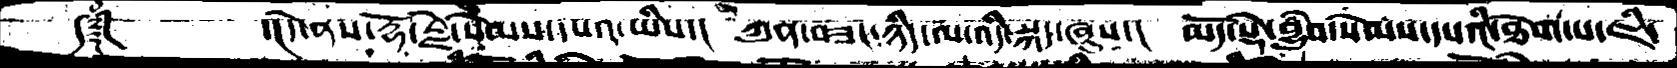༼༈ཾ༽    ་།དེ་ནས་རྡོ་རྗེ་སེམས་དཔའ་ཡིས་།  ཀུན་བཟང་ཉིད་ལ་འདི་སྐད་ཞུས་།  མདོ་སྡེ་བྱུཾབ་སེམས་དཔའི་ཐེག་པ་ཇི་
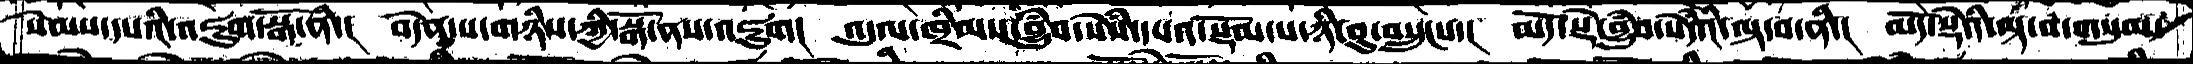སེམས་དཔའི་འཇུག་སྒོ་ནི་།  བདེན་པ་གཉིས་ཀྱི་སྒོ་ནས་འཇུག།  འདུལ་ཁྲིམས་བྱུཾབ་སེཾས་དཔའ་སྡོམ་པ་ཉི་ཤུ་བསྲུངས་།  མདོ་སྡེ་བྱུཾབ་སེདཾའི་ལྟ་བ་ནི་།  མདོ་སྡེའི་ལྟ་བ་གསུམ་
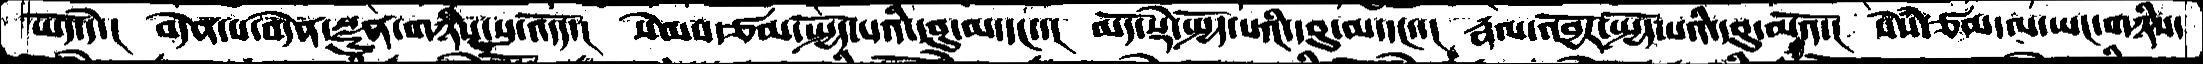ཡོད་དེ་།  བདེན་པ་བདེན་སྫུན་གཉིས་སུ་འདོད་།  སེམས་ཙམ་སྤྱོད་པའི་དབུ་མ་དང་་།  མདོ་སྡེ་སྤྱོད་པའི་དབུ་མ་དང་་།  རྣལ་འབྱོར་སྤྱོད་པའི་དབུ་མའོ་།  སེཾས་ཙམ་ལ་ཡང་གཉིས་
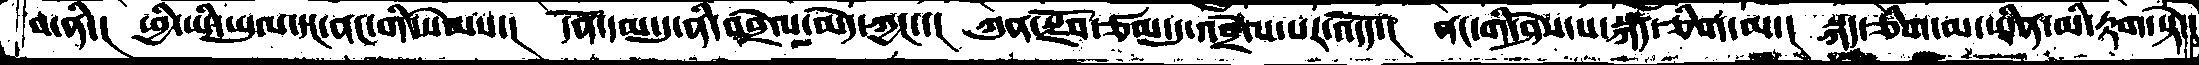བ་ནི་།  ཕྱི་ཡི་ཡུལ་དང་ནང་གི་སེམས་།  དོན་དམ་དུ་ནི་འབྲེལ་མེད་ཀྱང་་།  ཀུན་སྫོབ་ཙམ་དུ་འབྲེལ་པར་འདོད་།  ནང་གི་ཤེས་པ་སྐད་ཅིག་ལ་།  སྐད་ཅིག་མ་ཡིན་མི་རྟག་སྟེ་།
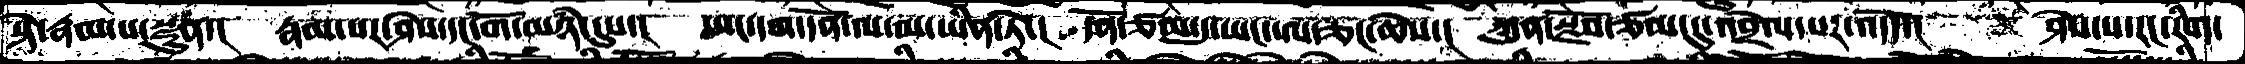སྟེ་རྣམ་པ་སྫུན་།  རྣམ་པར་ཤེས་དང་གོ་མཉཾ་དུས་།  ཡང་དག་དོན་ལ་མ་ཡིན་ཏེ་།  དོན་ཙམ་དུ་ཡང་ཨ་ཅང་ཆེས་།  ཀུན་སྫོབ་ཙམ་དུ་འབྲེལ་པར་འདོད་།  ཤེས་པ་རང་རིག་
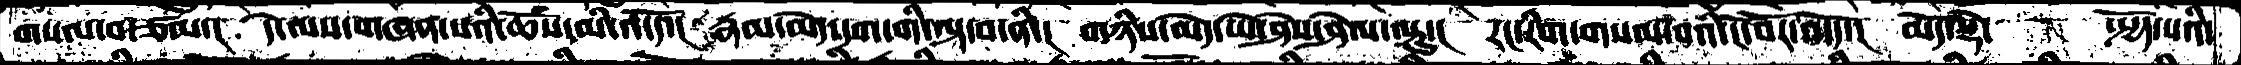གསལ་བ་ཙམ་།  དེ་ལས་གཞན་པའི་ཆོས་མི་འདོད་།  རྣམ་མེད་དག་གི་ལྟ་བ་ནི་།  གཉིས་མེད་ཡེ་ཤེས་ཤེལ་ལྟུ་།  རང་རིག་གསལ་བའི་ངོ་བོ་འདོད་།  མདོ་སྡེ་    སྤྱོད་པའི་
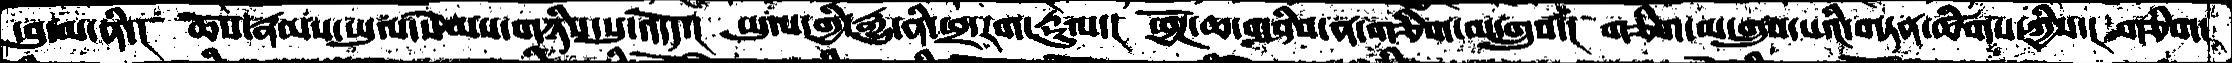དབུ་མ་ནི་།  ཆོས་རྣམས་ཡུལ་སེམས་གཉིས་སུ་འོདད་།  ཡུལ་གྱི་རྒྱུ་ནི་ཕྲ་རག་རྡུལ་།  ཕྱོཌ་ཆ་གཤིས་ན་གཅིག་མ་གྲུབ་།  གཅིག་མ་གྲུབ་པའི་གཏན་ཚིགས་ཀྱིས་།  གཅིག་
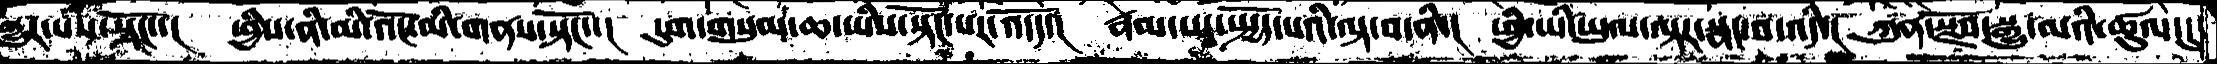གྱུར་པས་སྟོང་་།  ཕྱིས་ནི་མི་འོང་མི་གནས་སྟོང་་།  དུག་གསུམ་ཆ་ཡིས་སྟོང་པར་འདོད་།  རྣམ་པ་སྤྱོད་པའི་ལྟ་བ་ནི་།  ཕྱི་ཡི་ཡུལ་་ལྟར་སྣང་བ་འདི་།  ཀུན་སྫོབ་སྒྱུ་མའི་ཚུལ་དུ་
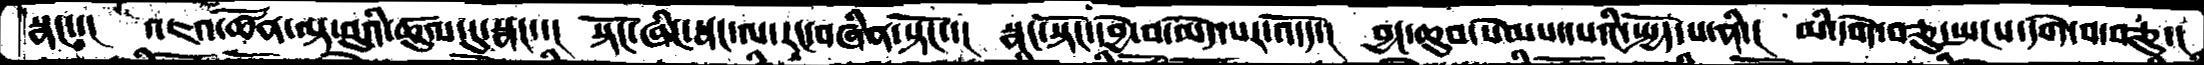སྣང་།  འཇའ་ཚོན་ལྟ་བུའི་ཚུལ་དུ་སྣང་་།  སྟོང་ཞིང་སྣང་ལ་རང་བཞིན་སྟོང་་།  སྣང་སྟོང་དབྱེ་བ་མེད་པར་འདོད་།  བྱང་ཆུབ་སེམས་དཔའི་སྤྱོད་པ་ནི་།  མི་དགེ་བཅུ་སྤངས་དགེ་བ་བཅུ་།
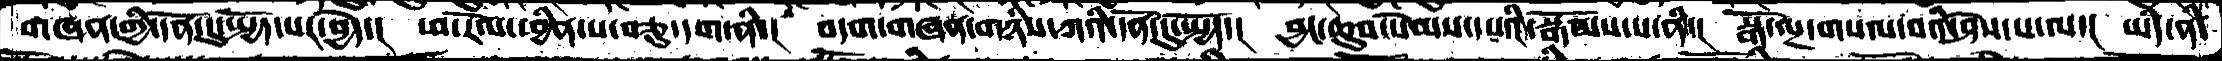གཞན་གྱི་དོན་དུ་སྤྱོད་པར་བྱེད་།  ཕ་རོལ་ཕྱིན་པ་བཅུ་དག་ནི་།  བདག་གཞན་གཉིས་ཀའི་དོན་དུ་སྤྱོད་།  བྱང་ཆུབ་སེམས་དཔའི་སྒོམས་པ་ནི་།  སྒོ་ལྔ་་གསལ་བའི་ཤེས་པ་ལ་།  ཡིད་ནི་
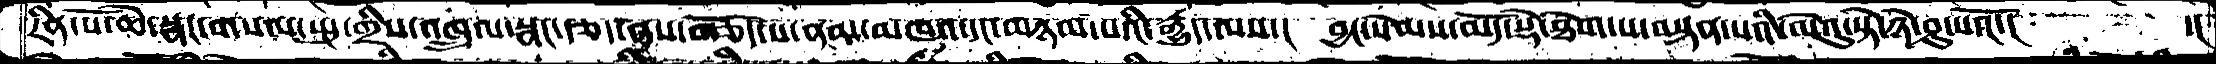རིན་པོ་ཆེ་སྣང་གསལ་སྤུ་གྲིས་འཁྲུལ་སྣང་རྩད་ནས་གཅོད་པ་ནམ་མཁའ་དང་མཉམ་པའི་རྒྱུད་ལས་།  བྱང་སེམས་མདོ་སྡེ་ཐེག་པ་བསྟན་པའི་ལེའུ་སྟེ་ཉེ་ཤུ་པའོ་།     ་།
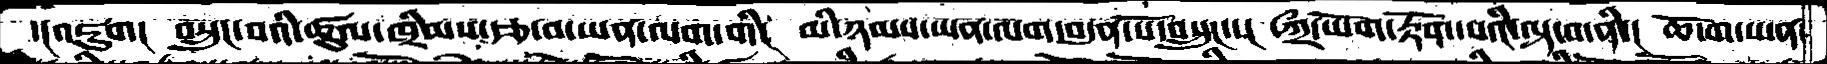དངའཇུག།  བསྲུང་བའི་ཚུལ་ཁྲིམས་རྩ་བ་ཡན་ལག་གི།   མི་ཉམས་ཡན་ལག་བདུན་པོ་བསྲུངས་།  ཀྲྀ་ཡོག་རྟོག་པའི་ལྟ་བ་ནི་།  ཆོ་ག་ཡན་
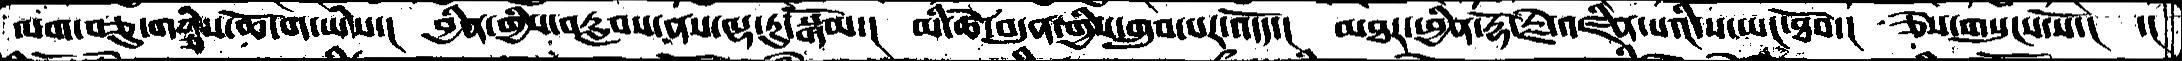ལག་བཅུ་གཉིས་ཆོ་ག་ཡིས་།  བྱིན་གྱིས་བརླབས་ནས་ལྷ་རུ་སྒོམ་།  མི་ཚེ་བདུན་གྱིས་གྲུབ་པར་འདོད་།  མཐར་ཕྱིན་རྡོ་རྗེ་འཛིན་པའི་ས་ཡང་ཐོབ་། ཅེས་གསུངས་སོ་། ་།
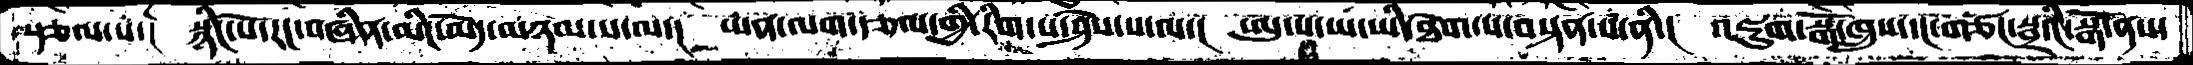སྩལ་པ་།  སྙིང་པོ་རང་བཞིན་མིང་མེད་མཉམ་པ་ལ་།  ཡན་ལག་རྩལ་གྱི་རིག་པ་ཤེས་པ་ལ་།  ཨུ་པ་ཡ་ཡི་ཐེག་པ་བསྟན་པ་ནི་།  འཇུག་སྒོ་ཁྲུས་དང་གཙང་སྦྲའི་སྒོ་ནས་
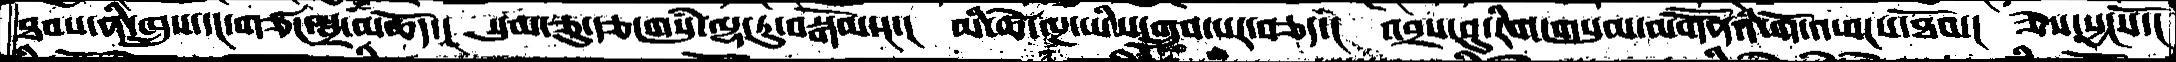ཐབས་ནི་ཁྲུས་དང་གཙང་སྦྲ་མཆོད་།  སུམ་ཅུ་རྩ་གསུཾ་ལྷ་རུ་བསྒོམས་།  མི་ཚེ་ལྔ་ཡིས་གྲུབ་པར་བཅད་།  འབྲས་བུ་རིག་གསུམ་མགཽནའི་གོ་འཕངས་ཐོབ་།  ཅེས་སྱངསོ་།
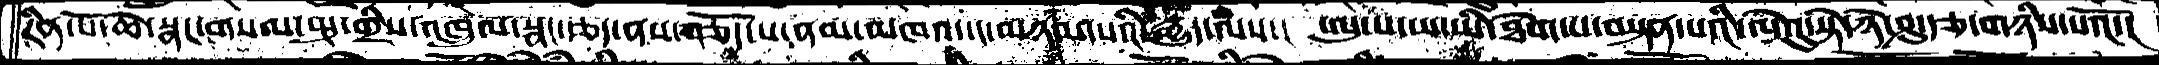རིན་པོ་ཆེ་སྣང་གསལ་སྤུ་གྲིས་འཁྲུལ་སྣང་རྩད་ནས་གཅོད་པ་ནམ་མཁའ་དང་མཉམ་པའི་རྒྱུད་ལས་།  ཨུ་པ་ཡ་ཡི་ཐེག་པ་བསྟན་པའི་ལེའུ་སྟེ་ཉེ་ཤུ་རྩ་གཉིས་པའོ་།
